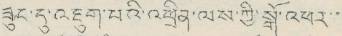ཟུང་དུ་འཐུག་པའི་འཕྲིན་ལས་ཀྱི་སྒོ་འཕར་་
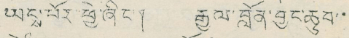ཡངྶ་པོར་ཕྱེ་ཞིང་། རྒྱལ་བློན་བྱང་ཆུབ་་
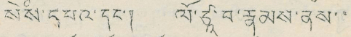སེཾས་དཔའ་དང་། ལོ་ཙཱ་བ་རྣམས་ནས་་
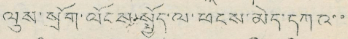ལུས་སྲོག་ལོངས་སྤྱོད་ལ་ཕངས་མེད་དཀའ་་
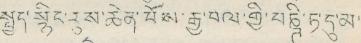སྤྱད་སྙིང་རུས་ཆེན་པོས་རྒྱ་བལ་གྱི་པཎྜི་ཏ་དུ་མ་
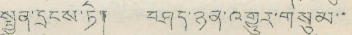སྤྱན་དྲངས་ཏེ། བཤད་ཉན་འགྱུར་གསུམ་་
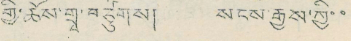གྱི་ཆོས་གྲ་བཙུགས། སངས་རྒྱས་ཀྱི་་
